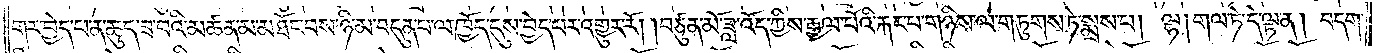གར་བྱེད་པ་ན་ཆུད་ཟ་བའི་མཚན་མ་མཐོང་བས་ཉི་མ་བདུན་པ་ལ་ཁྱོད་དུས་བྱེད་པར་འགྱུར་རོ། །བཙུན་མོ་ཟླ་འོད་ཀྱིས་རྒྱལ་པོའི་རྐང་པ་གཉིས་ལ་གཏུགས་ཏེ་སྨྲས་པ། ལྷ། གལ་ཏེ་དེ་ལྟ་ན། བདག་
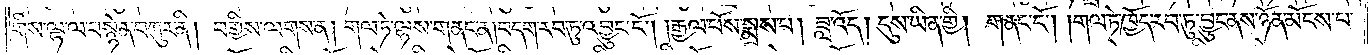གིས་ལྷ་ལ་བསྙེན་བཀུར་ནི། བགྱིས་ལགས་ན། གལ་ཏེ་ལྷས་གནང་ན། བདག་རབ་ཏུ་འབྱུང་ངོ༌། །རྒྱལ་པོས་སྨྲས་པ། ཟླ་འོད། དུས་ཡིན་གྱི། གནང་ངོ༌། །གལ་ཏེ་ཁྱོད་རབ་ཏུ་བྱུང་ནས་ཉོན་མོངས་པ་
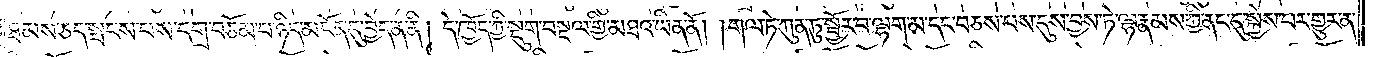ཐམས་ཅད་སྤངས་པས་དགྲ་བཅོམ་པ་ཉིད་མངོན་དུ་བྱེད་ན་ནི། དེ་ཁྱོད་ཀྱི་སྡུག་བསྔལ་གྱི་མཐའ་ཡིན་ནོ། །གལ་ཏེ་ཀུན་ཏུ་སྦྱོར་བ་ལྷག་མ་དང་བཅས་པས་དུས་བྱས་ཏེ་ལྷ་རྣམས་ཀྱི་ནང་དུ་སྐྱེས་པར་གྱུར་ན་
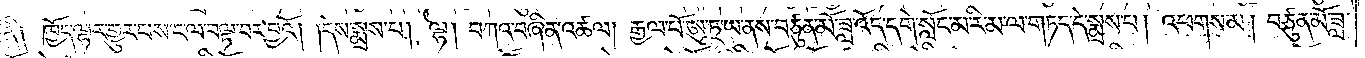ནི། ཁྱོད་ལྷར་གྱུར་པས་ང་ལ་བལྟ་བར་བྱའོ། །དེས་སྨྲས་པ། ལྷ། བཀའ་བཞིན་འཚལ། རྒྱལ་པོ་ཨུ་ཏྲ་ཡ་ནས་བཙུན་མོ་ཟླ་འོད་དགེ་སློང་མ་རིམ་ལ་གཏད་དེ་སྨྲས་པ། འཕགས་མ། བཙུན་མོ་ཟླ་
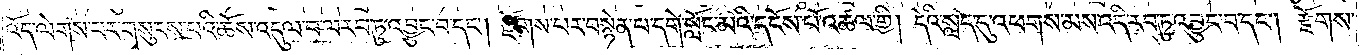འོད་ལེགས་པར་གསུངས་པའི་ཆོས་འདུལ་བ་ལ་རབ་ཏུ་འབྱུང་བ་དང༌། རྫོགས་པར་བསྙེན་པ་དགེ་སློང་མའི་དངོས་པོ་འཚལ་གྱི། དེའི་སླད་དུ་འཕགས་མས་འདི་རབ་ཏུ་འབྱུང་བ་དང༌། རྫོགས་
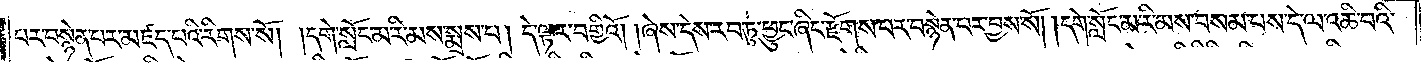པར་བསྙེན་པར་མཛད་པའི་རིགས་སོ། །དགེ་སློང་མ་རི་མས་སྨྲས་པ། དེ་ལྟར་བགྱིའོ། །ཞེས་དེས་རབ་ཏུ་ཕྱུང་ཞིང་རྫོགས་པར་བསྙེན་པར་བྱས་སོ། །དགེ་སློང་མ་རི་མས་བསམ་པས་དེ་ལ་འཆི་བའི་
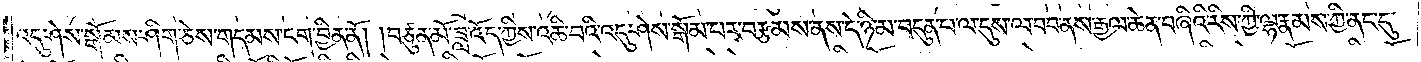འདུ་ཤེས་སྒོམས་ཤིག་ཅེས་གདམས་ངག་བྱིན་ནོ། །བཙུན་མོ་ཟླ་འོད་ཀྱིས་འཆི་བའི་འདུ་ཤེས་སྒོམ་པར་བརྩམས་ནས་དེ་ཉི་མ་བདུན་པ་ལ་དུས་ལ་བབ་ནས་རྒྱལ་ཆེན་བཞིའི་རིས་ཀྱི་ལྷ་རྣམས་ཀྱི་ནང་དུ་
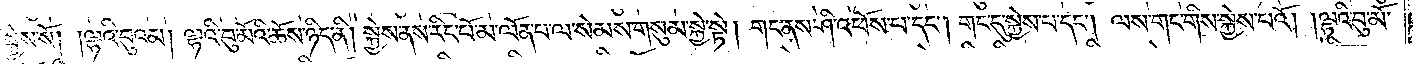སྐྱེས་སོ། །ལྷའི་བུའམ། ལྷའི་བུ་མོའི་ཆོས་ཉིད་ནི། སྐྱེས་ནས་རིང་པོ་མ་ལོན་པ་ལ་སེམས་གསུམ་སྐྱེ་སྟེ། གང་ནས་ཤི་འཕོས་པ་དང༌། གང་དུ་སྐྱེས་པ་དང༌། ལས་གང་གིས་སྐྱེས་པའོ། །ལྷའི་བུ་མོ་
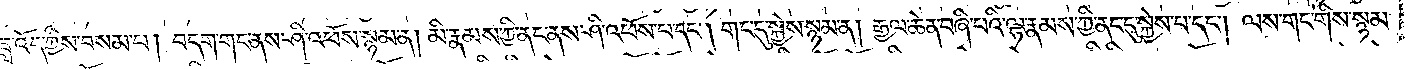ཟླ་འོད་ཀྱིས་བསམ་པ། བདག་གང་ནས་ཤི་འཕོས་སྙམ་ན། མི་རྣམས་ཀྱི་ནང་ནས་ཤི་འཕོས་པ་དང༌། གང་དུ་སྐྱེས་སྙམ་ན། རྒྱལ་ཆེན་བཞི་པའི་ལྷ་རྣམས་ཀྱི་ནང་དུ་སྐྱེས་པ་དང༌། ལས་གང་གིས་སྙམ་
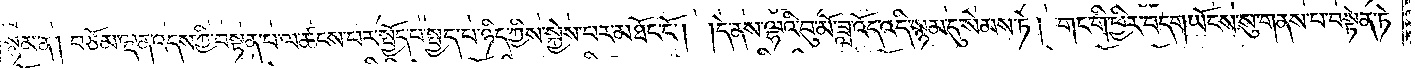སྙམ་ན། བཅོམ་ལྡན་འདས་ཀྱི་བསྟན་པ་ལ་ཚངས་པར་སྤྱོད་པ་སྤྱད་པ་ཉིད་ཀྱིས་སྐྱེས་པར་མཐོང་ངོ༌། །དེ་ནས་ལྷའི་བུ་མོ་ཟླ་འོད་འདི་སྙམ་དུ་སེམས་ཏེ། གང་གི་ཕྱིར་བདག་ཡོངས་སུ་གནས་པ་བསྟེན་ཏེ་
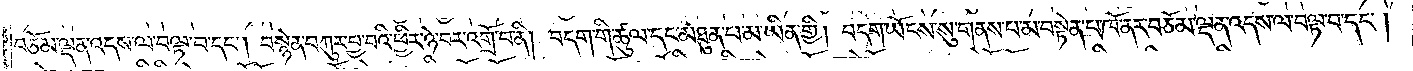བཅོམ་ལྡན་འདས་ལ་བལྟ་བ་དང༌། བསྙེན་བཀུར་བྱ་བའི་ཕྱིར་ཉེ་བར་འགྲོ་བ་ནི། བདག་གི་ཚུལ་དང་མཐུན་པ་མ་ཡིན་གྱི། བདག་ཡོངས་སུ་གནས་པ་མ་བསྟེན་པ་ཁོ་ནར་བཅོམ་ལྡན་འདས་ལ་བལྟ་བ་དང༌།
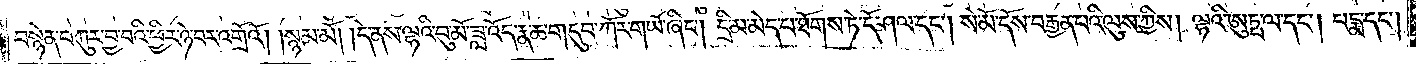བསྙེན་བཀུར་བྱ་བའི་ཕྱིར་ཉེ་བར་འགྲོའོ། །སྙམ་མོ། །དེ་ནས་ལྷའི་བུ་མོ་ཟླ་འོད་རྣ་ཆ་གདུབ་ཀོར་གཡོ་ཞིང༌། དྲི་མ་མེད་པ་ཐོགས་ཏེ་དོ་ཤལ་དང༌། སེ་མོ་དོས་བརྒྱན་པའི་ལུས་ཀྱིས། ལྷའི་ཨུཏྤལ་དང༌། པདྨ་དང༌།
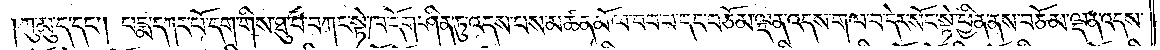།ཀུ་མུ་ད་དང༌། པདྨ་དཀར་པོ་དག་གིས་ཐུ་བ་བཀང་སྟེ་ཁ་དོག་ཤིན་ཏུ་འདས་པས་མཚན་མོ་ལ་བབ་པ་དང་བཅོམ་ལྡན་འདས་ག་ལ་བ་དེར་སོང་སྟེ་ཕྱིན་ནས་བཅོམ་ལྡན་འདས་
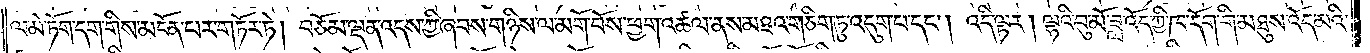ལ་མེ་ཏོག་དག་གིས་མངོན་པར་གཏོར་ཏེ། བཅོམ་ལྡན་འདས་ཀྱི་ཞབས་གཉིས་ལ་མགོ་བོས་ཕྱག་འཚལ་ནས་མཐའ་གཅིག་ཏུ་འདུག་པ་དང༌། འདི་ལྟར། ལྷའི་བུ་མོ་ཟླ་འོད་ཀྱི་ཁ་དོག་གི་མཐུས་འོད་མའི་
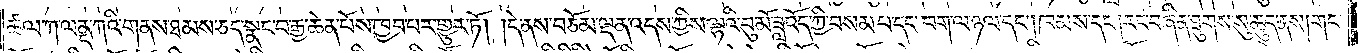ཚལ་ཀ་ལནྡ་ཀའི་གནས་ཐམས་ཅད་སྣང་བ་རྒྱ་ཆེན་པོས་ཁྱབ་པར་གྱུར་ཏོ། །དེ་ནས་བཅོམ་ལྡན་འདས་ཀྱིས་ལྷའི་བུ་མོ་ཟླ་འོད་ཀྱི་བསམ་པ་དང་བག་ལ་ཉལ་དང༌། ཁམས་དང༌། རང་བཞིན་ཐུགས་སུ་ཆུད་ནས། གང་
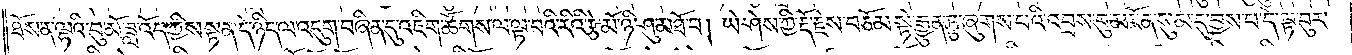ཐོས་ན་ལྷའི་བུ་མོ་ཟླ་འོད་ཀྱིས་སྟན་དེ་ཉིད་ལ་འདུག་བཞིན་དུ་འཇིག་ཚོགས་ལ་ལྟ་བའི་རིའི་རྩེ་མོ་ཉི་ཤུ་མཐོ་བ། ཡེ་ཤེས་ཀྱི་རྡོ་རྗེས་བཅོམ་སྟེ་རྒྱུན་ཏུ་ཞུགས་པའི་འབྲས་བུ་མངོན་སུམ་དུ་བྱས་པ་དེ་ལྟ་བུར་
